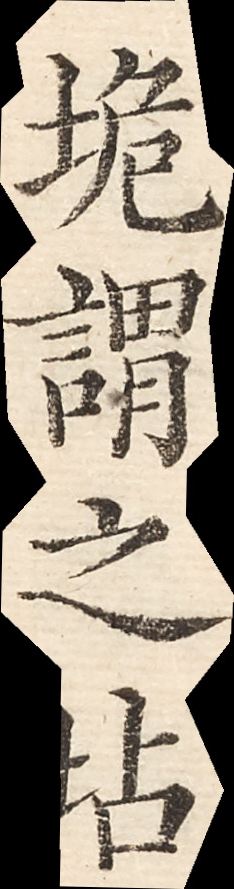垝謂之坫
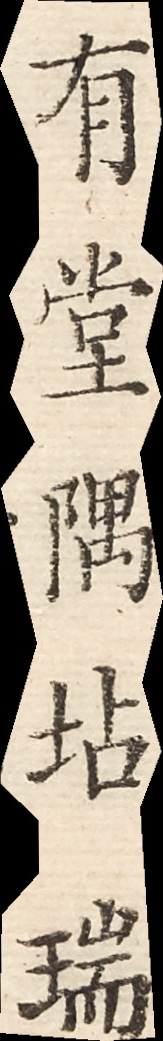有在堂隅坫㙐
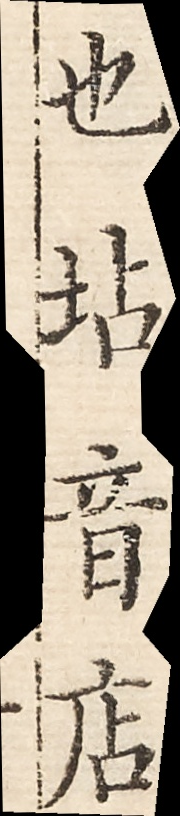也坫音店
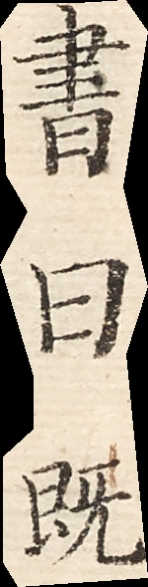書曰既
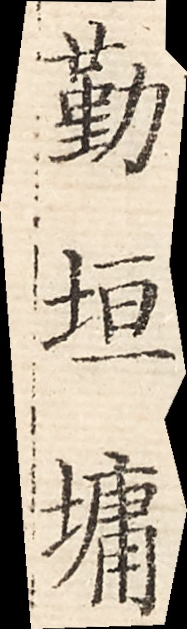勤垣墉
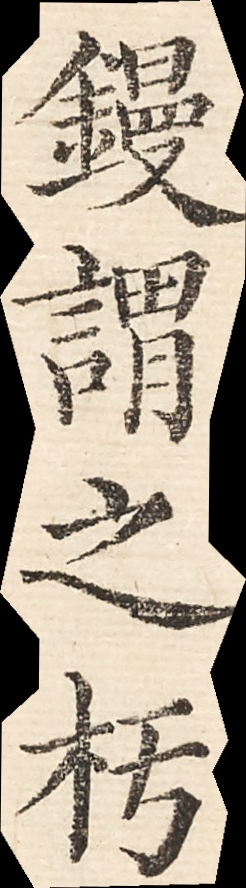镘謂之杇
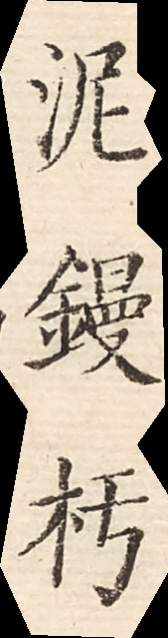泥镘椹
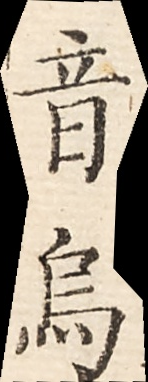音鳥
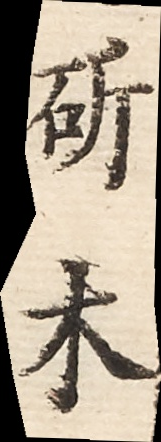斫木
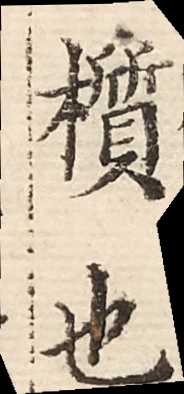櫍也
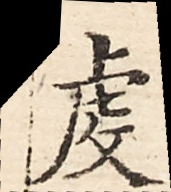虔
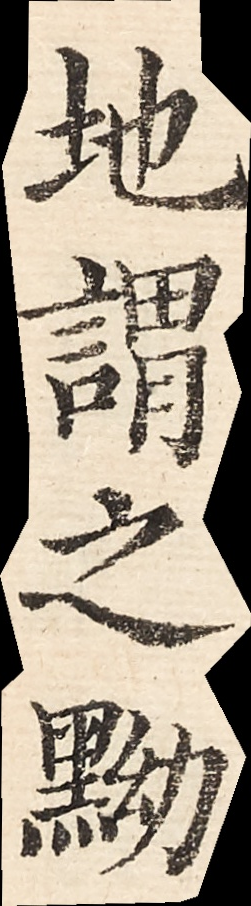地謂之黝
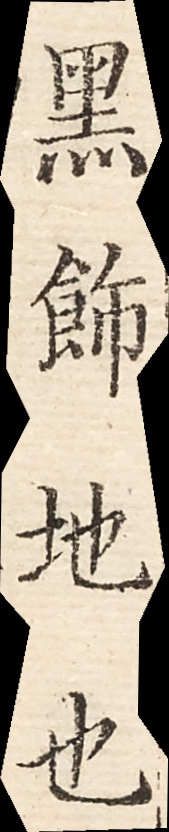黑飾地也
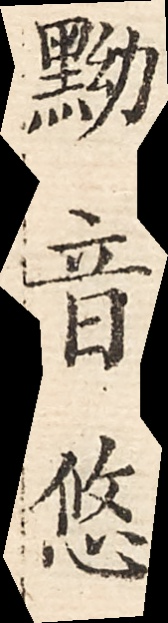黝音悠
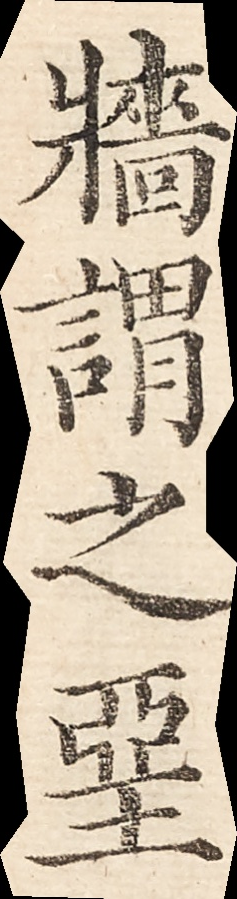牆謂之堊
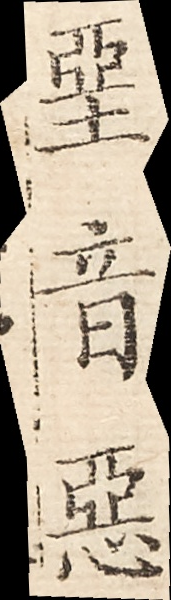堊音惡
